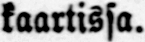kaartissa.
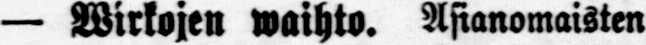— Wirkojen waihto. Asianomaisten
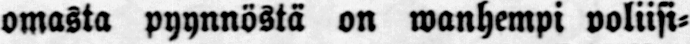omasta pyynnöstä on wanhempi poliisi-
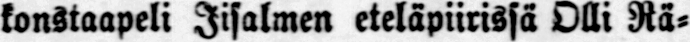konstaapeli Iisalmen eteläpiirissä Olli Rä-
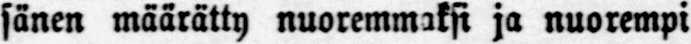sänen määrätty nuoremmaksi ja nuorempi
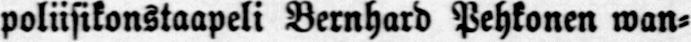poliisikonstaapeli Bernhard Pehkonen wan-
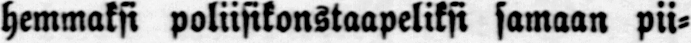hemmaksi poliisikonstaapeliksi samaan pii-
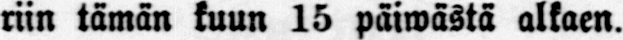riin tämän kuun 15 päiwästä alkaen.
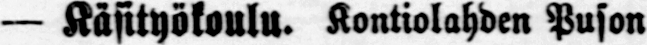— Käsityökoulu. Kontiolahden Puson
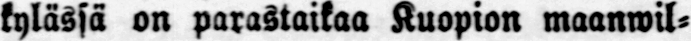kylässä on parastaikaa Kuopion maanwil-
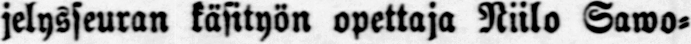jelysseuran käsityön opettaja Niilo Sawo-
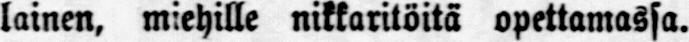lainen, miehille nikkaritöitä opettamassa.
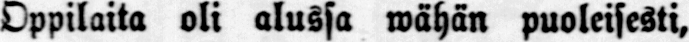Oppilaita oli alussa wähän puoleisesti,
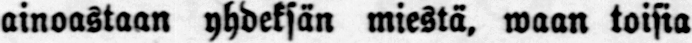ainoastaan yhdeksän miestä, waan toisia
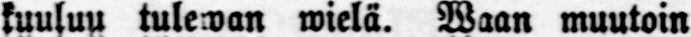kuuluu tulewan wielä. Waan muutoin
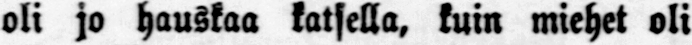oli jo hauskaa katsella, kuin miehet oli
